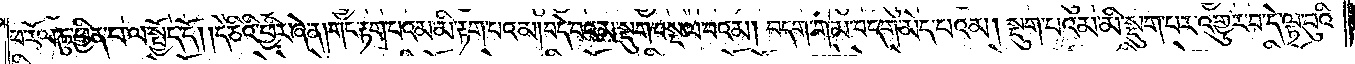ཕ་རོལ་ཏུ་ཕྱིན་པ་ལ་སྤྱོད་དོ། །དེ་ཅིའི་ཕྱིར་ཞེ་ན། གང་རྟག་པའམ་མི་རྟག་པའམ། བདེ་བའམ་སྡུག་བསྔལ་བའམ། བདག་གམ་བདག་མེད་པའམ། སྡུག་པའམ་མི་སྡུག་པར་འགྱུར་བ་དེ་ལྟ་བུའི་
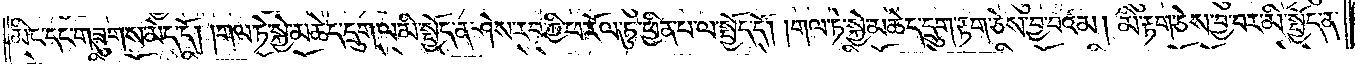མིང་དང་གཟུགས་མེད་དོ། །གལ་ཏེ་སྐྱེ་མཆེད་དྲུག་ལ་མི་སྤྱོད་ན་ཤེས་རབ་ཀྱི་ཕ་རོལ་ཏུ་ཕྱིན་པ་ལ་སྤྱོད་དོ། །གལ་ཏེ་སྐྱེ་མཆེད་དྲུག་རྟག་ཅེས་བྱ་བའམ། མི་རྟག་ཅེས་བྱ་བར་མི་སྤྱོད་ན་
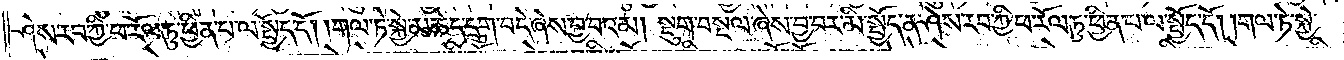ཤེས་རབ་ཀྱི་ཕ་རོལ་ཏུ་ཕྱིན་པ་ལ་སྤྱོད་དོ། །གལ་ཏེ་སྐྱེ་མཆེད་དྲུག་བདེ་ཞེས་བྱ་བའམ། སྡུག་བསྔལ་ཞེས་བྱ་བར་མི་སྤྱོད་ན་ཤེས་རབ་ཀྱི་ཕ་རོལ་ཏུ་ཕྱིན་པ་ལ་སྤྱོད་དོ། །གལ་ཏེ་སྐྱེ་
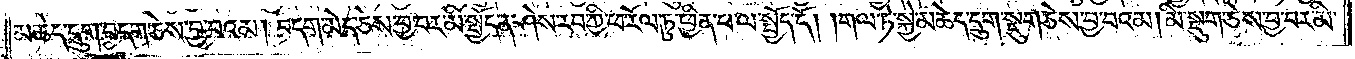མཆེད་དྲུག་བདག་ཅེས་བྱ་བའམ། བདག་མེད་ཅེས་བྱ་བར་མི་སྤྱོད་ན་ཤེས་རབ་ཀྱི་ཕ་རོལ་ཏུ་ཕྱིན་པ་ལ་སྤྱོད་དོ། །གལ་ཏེ་སྐྱེ་མཆེད་དྲུག་སྡུག་ཅེས་བྱ་བའམ། མི་སྡུག་ཅེས་བྱ་བར་མི་
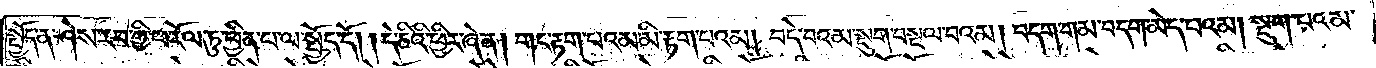སྤྱོད་ན་ཤེས་རབ་ཀྱི་ཕ་རོལ་ཏུ་ཕྱིན་པ་ལ་སྤྱོད་དོ། །དེ་ཅིའི་ཕྱིར་ཞེ་ན། གང་རྟག་པའམ་མི་རྟག་པའམ། བདེ་བའམ་སྡུག་བསྔལ་བའམ། བདག་གམ་བདག་མེད་པའམ། སྡུག་པའམ་
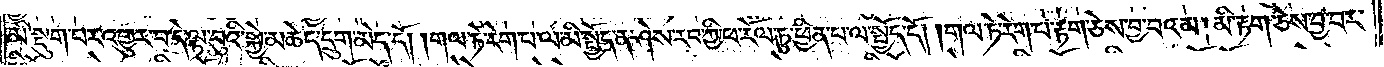མི་སྡུག་པར་འགྱུར་བ་དེ་ལྟ་བུའི་སྐྱེ་མཆེད་དྲུག་མེད་དོ། །གལ་ཏེ་རེག་པ་ལ་མི་སྤྱོད་ན་ཤེས་རབ་ཀྱི་ཕ་རོལ་ཏུ་ཕྱིན་པ་ལ་སྤྱོད་དོ། །གལ་ཏེ་རེག་པ་རྟག་ཅེས་བྱ་བའམ། མི་རྟག་ཅེས་བྱ་བར་
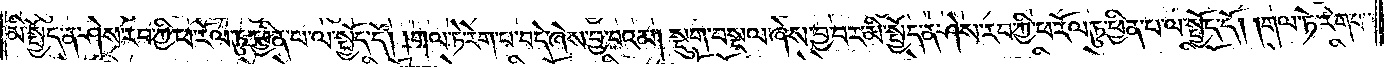མི་སྤྱོད་ན་ཤེས་རབ་ཀྱི་ཕ་རོལ་ཏུ་ཕྱིན་པ་ལ་སྤྱོད་དོ། །གལ་ཏེ་རེག་པ་བདེ་ཞེས་བྱ་བའམ། སྡུག་བསྔལ་ཞེས་བྱ་བར་མི་སྤྱོད་ན་ཤེས་རབ་ཀྱི་ཕ་རོལ་ཏུ་ཕྱིན་པ་ལ་སྤྱོད་དོ། །གལ་ཏེ་རེག་པ་
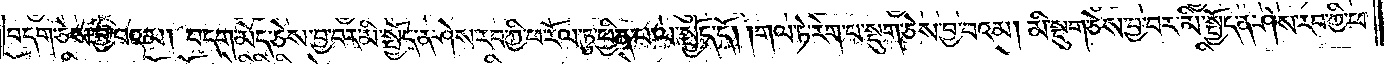བདག་ཅེས་བྱ་བའམ། བདག་མེད་ཅེས་བྱ་བར་མི་སྤྱོད་ན་ཤེས་རབ་ཀྱི་ཕ་རོལ་ཏུ་ཕྱིན་པ་ལ་སྤྱོད་དོ། །གལ་ཏེ་རེག་པ་སྡུག་ཅེས་བྱ་བའམ། མི་སྡུག་ཅེས་བྱ་བར་མི་སྤྱོད་ན་ཤེས་རབ་ཀྱི་ཕ་
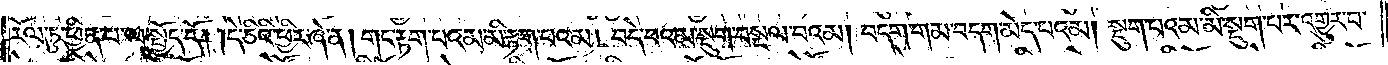རོལ་ཏུ་ཕྱིན་པ་ལ་སྤྱོད་དོ། །དེ་ཅིའི་ཕྱིར་ཞེ་ན། གང་རྟག་པའམ་མི་རྟག་པའམ། བདེ་བའམ་སྡུག་བསྔལ་བའམ། བདག་གམ་བདག་མེད་པའམ། སྡུག་པའམ་མི་སྡུག་པར་འགྱུར་བ་
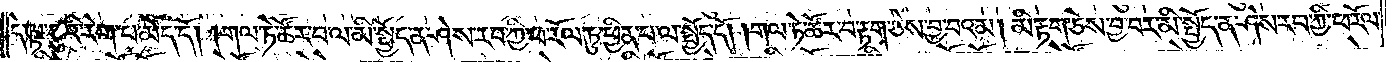དེ་ལྟ་བུའི་རེག་པ་མེད་དོ། །གལ་ཏེ་ཚོར་བ་ལ་མི་སྤྱོད་ན་ཤེས་རབ་ཀྱི་ཕ་རོལ་ཏུ་ཕྱིན་པ་ལ་སྤྱོད་དོ། །གལ་ཏེ་ཚོར་བ་རྟག་ཅེས་བྱ་བའམ། མི་རྟག་ཅེས་བྱ་བར་མི་སྤྱོད་ན་ཤེས་རབ་ཀྱི་ཕ་རོལ་
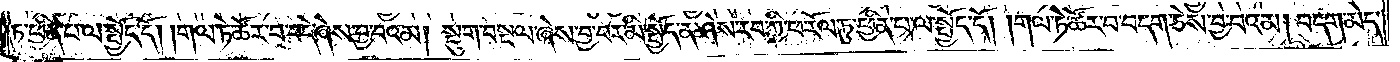ཏུ་ཕྱིན་པ་ལ་སྤྱོད་དོ། །གལ་ཏེ་ཚོར་བ་བདེ་ཞེས་བྱ་བའམ། སྡུག་བསྔལ་ཞེས་བྱ་བར་མི་སྤྱོད་ན་ཤེས་རབ་ཀྱི་ཕ་རོལ་ཏུ་ཕྱིན་པ་ལ་སྤྱོད་དོ། །གལ་ཏེ་ཚོར་བ་བདག་ཅེས་བྱ་བའམ། བདག་མེད་
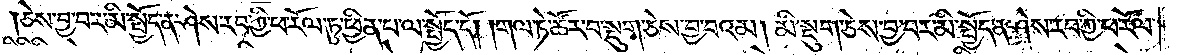ཅེས་བྱ་བར་མི་སྤྱོད་ན་ཤེས་རབ་ཀྱི་ཕ་རོལ་ཏུ་ཕྱིན་པ་ལ་སྤྱོད་དོ། །གལ་ཏེ་ཚོར་བ་སྡུག་ཅེས་བྱ་བའམ། མི་སྡུག་ཅེས་བྱ་བར་མི་སྤྱོད་ན་ཤེས་རབ་ཀྱི་ཕ་རོལ་
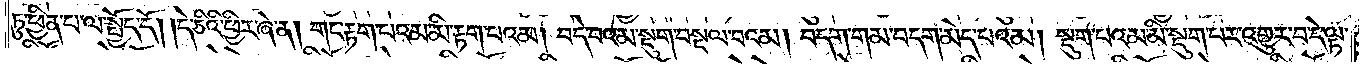ཏུ་ཕྱིན་པ་ལ་སྤྱོད་དོ། །དེ་ཅིའི་ཕྱིར་ཞེ་ན། གང་རྟག་པའམ་མི་རྟག་པའམ། བདེ་བའམ་སྡུག་བསྔལ་བའམ། བདག་གམ་བདག་མེད་པའམ། སྡུག་པའམ་མི་སྡུག་པར་འགྱུར་བ་དེ་ལྟ་
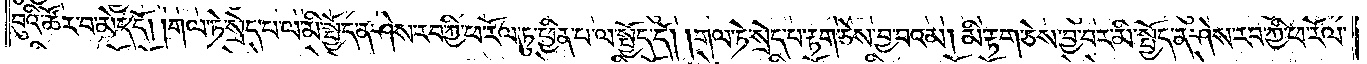བུའི་ཚོར་བ་མེད་དོ། །གལ་ཏེ་སྲེད་པ་ལ་མི་སྤྱོད་ན་ཤེས་རབ་ཀྱི་ཕ་རོལ་ཏུ་ཕྱིན་པ་ལ་སྤྱོད་དོ། །གལ་ཏེ་སྲེད་པ་རྟག་ཅེས་བྱ་བའམ། མི་རྟག་ཅེས་བྱ་བར་མི་སྤྱོད་ན་ཤེས་རབ་ཀྱི་ཕ་རོལ་
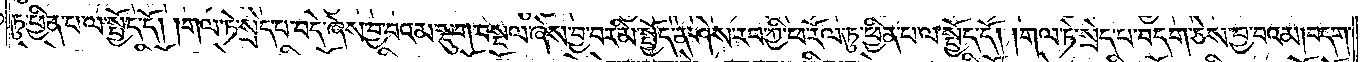ཏུ་ཕྱིན་པ་ལ་སྤྱོད་དོ། །གལ་ཏེ་སྲེད་པ་བདེ་ཞེས་བྱ་བའམ་སྡུག་བསྔལ་ཞེས་བྱ་བར་མི་སྤྱོད་ན་ཤེས་རབ་ཀྱི་ཕ་རོལ་ཏུ་ཕྱིན་པ་ལ་སྤྱོད་དོ། །གལ་ཏེ་སྲེད་པ་བདག་ཅེས་བྱ་བའམ། བདག་
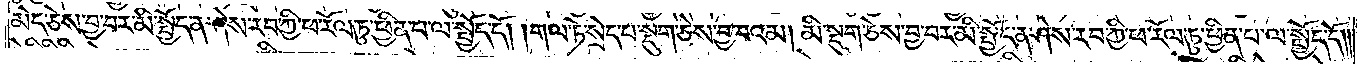མེད་ཅེས་བྱ་བར་མི་སྤྱོད་ན་ཤེས་རབ་ཀྱི་ཕ་རོལ་ཏུ་ཕྱིན་པ་ལ་སྤྱོད་དོ། །གལ་ཏེ་སྲེད་པ་སྡུག་ཅེས་བྱ་བའམ། མི་སྡུག་ཅེས་བྱ་བར་མི་སྤྱོད་ན་ཤེས་རབ་ཀྱི་ཕ་རོལ་ཏུ་ཕྱིན་པ་ལ་སྤྱོད་དོ། །
